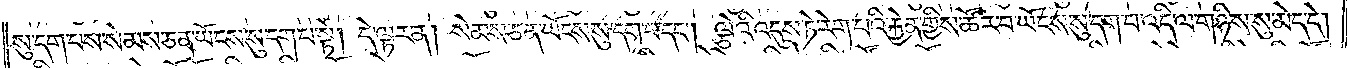སུ་དག་པས་སེམས་ཅན་ཡོངས་སུ་དག་པ་སྟེ། དེ་ལྟར་ན། སེམས་ཅན་ཡོངས་སུ་དག་པ་དང༌། ལྕེའི་འདུས་ཏེ་རེག་པའི་རྐྱེན་གྱིས་ཚོར་བ་ཡོངས་སུ་དག་པ་འདི་ལ་གཉིས་སུ་མེད་དེ།
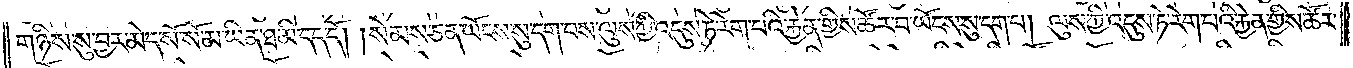གཉིས་སུ་བྱར་མེད་སོ་སོ་མ་ཡིན་ཐ་མི་དད་དོ། །སེམས་ཅན་ཡོངས་སུ་དག་པས་ལུས་ཀྱི་འདུས་ཏེ་རེག་པའི་རྐྱེན་གྱིས་ཚོར་བ་ཡོངས་སུ་དག་པ། ལུས་ཀྱི་འདུས་ཏེ་རེག་པའི་རྐྱེན་གྱིས་ཚོར་
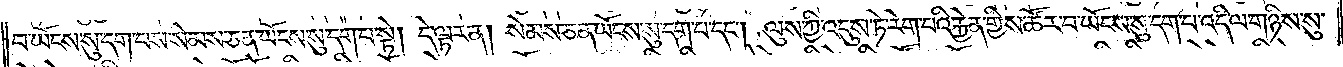བ་ཡོངས་སུ་དག་པས་སེམས་ཅན་ཡོངས་སུ་དག་པ་སྟེ། དེ་ལྟར་ན། སེམས་ཅན་ཡོངས་སུ་དག་པ་དང༌། ལུས་ཀྱི་འདུས་ཏེ་རེག་པའི་རྐྱེན་གྱིས་ཚོར་བ་ཡོངས་སུ་དག་པ་འདི་ལ་གཉིས་སུ་
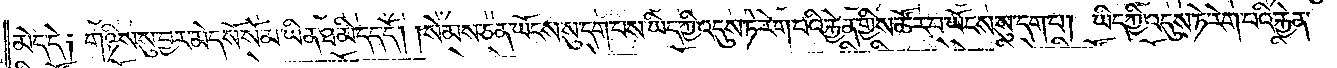མེད་དེ། གཉིས་སུ་བྱར་མེད་སོ་སོ་མ་ཡིན་ཐ་མི་དད་དོ། །སེམས་ཅན་ཡོངས་སུ་དག་པས་ཡིད་ཀྱི་འདུས་ཏེ་རེག་པའི་རྐྱེན་གྱིས་ཚོར་བ་ཡོངས་སུ་དག་པ། ཡིད་ཀྱི་འདུས་ཏེ་རེག་པའི་རྐྱེན་
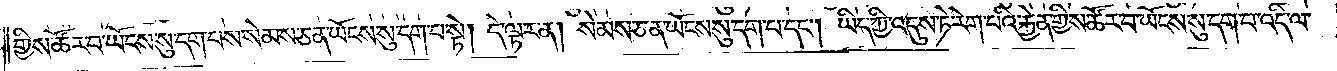གྱིས་ཚོར་བ་ཡོངས་སུ་དག་པས་སེམས་ཅན་ཡོངས་སུ་དག་པ་སྟེ། དེ་ལྟར་ན། སེམས་ཅན་ཡོངས་སུ་དག་པ་དང༌། ཡིད་ཀྱི་འདུས་ཏེ་རེག་པའི་རྐྱེན་གྱིས་ཚོར་བ་ཡོངས་སུ་དག་པ་འདི་ལ་
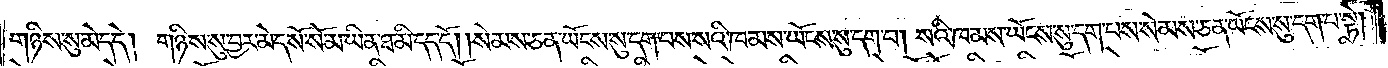གཉིས་སུ་མེད་དེ། གཉིས་སུ་བྱར་མེད་སོ་སོ་མ་ཡིན་ཐ་མི་དད་དོ། །སེམས་ཅན་ཡོངས་སུ་དག་པས་སའི་ཁམས་ཡོངས་སུ་དག་པ། སའི་ཁམས་ཡོངས་སུ་དག་པས་སེམས་ཅན་ཡོངས་སུ་དག་པ་སྟེ།
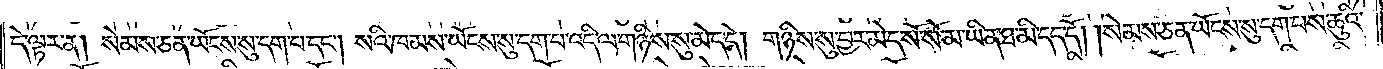དེ་ལྟར་ན། སེམས་ཅན་ཡོངས་སུ་དག་པ་དང༌། སའི་ཁམས་ཡོངས་སུ་དག་པ་འདི་ལ་གཉིས་སུ་མེད་དེ། གཉིས་སུ་བྱར་མེད་སོ་སོ་མ་ཡིན་ཐ་མི་དད་དོ། །སེམས་ཅན་ཡོངས་སུ་དག་པས་ཆུའི་
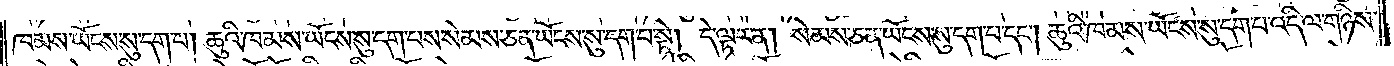ཁམས་ཡོངས་སུ་དག་པ། ཆུའི་ཁམས་ཡོངས་སུ་དག་པས་སེམས་ཅན་ཡོངས་སུ་དག་པ་སྟེ། དེ་ལྟར་ན། སེམས་ཅན་ཡོངས་སུ་དག་པ་དང༌། ཆུའི་ཁམས་ཡོངས་སུ་དག་པ་འདི་ལ་གཉིས་
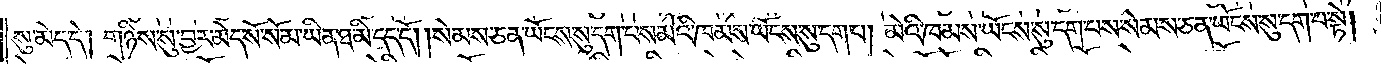སུ་མེད་དེ། གཉིས་སུ་བྱར་མེད་སོ་སོ་མ་ཡིན་ཐ་མི་དད་དོ། །སེམས་ཅན་ཡོངས་སུ་དག་པས་མེའི་ཁམས་ཡོངས་སུ་དག་པ། མེའི་ཁམས་ཡོངས་སུ་དག་པས་སེམས་ཅན་ཡོངས་སུ་དག་པ་སྟེ།
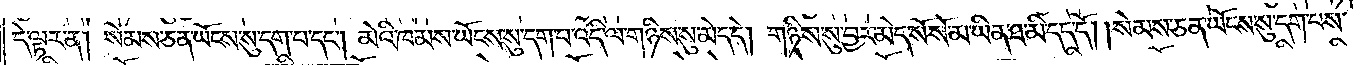དེ་ལྟར་ན། སེམས་ཅན་ཡོངས་སུ་དག་པ་དང༌། མེའི་ཁམས་ཡོངས་སུ་དག་པ་འདི་ལ་གཉིས་སུ་མེད་དེ། གཉིས་སུ་བྱར་མེད་སོ་སོ་མ་ཡིན་ཐ་མི་དད་དོ། །སེམས་ཅན་ཡོངས་སུ་དག་པས་
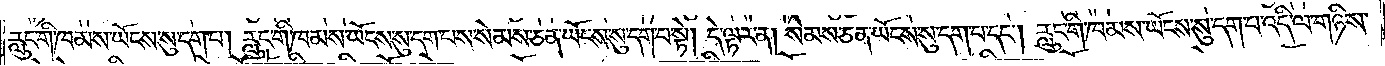རླུང་གི་ཁམས་ཡོངས་སུ་དག་པ། རླུང་གི་ཁམས་ཡོངས་སུ་དག་པས་སེམས་ཅན་ཡོངས་སུ་དག་པ་སྟེ། དེ་ལྟར་ན། སེམས་ཅན་ཡོངས་སུ་དག་པ་དང༌། རླུང་གི་ཁམས་ཡོངས་སུ་དག་པ་འདི་ལ་གཉིས་
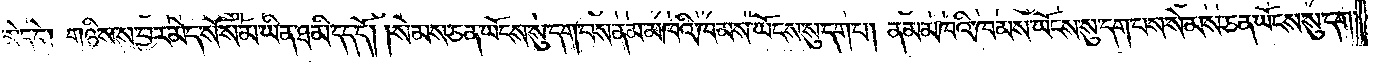སུ་མེད་དེ། གཉིས་སུ་བྱར་མེད་སོ་སོ་མ་ཡིན་ཐ་མི་དད་དོ། །སེམས་ཅན་ཡོངས་སུ་དག་པས་ནམ་མཁའི་ཁམས་ཡོངས་སུ་དག་པ། ནམ་མཁའ་ཁམས་ཡོངས་སུ་དག་པས་སེམས་ཅན་ཡོངས་སུ་དག་
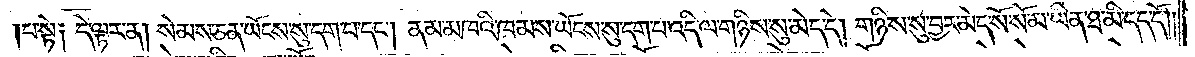པ་སྟེ། དེ་ལྟར་ན། སེམས་ཅན་ཡོངས་སུ་དག་པ་དང༌། ནམ་མཁའི་ཁམས་ཡོངས་སུ་དག་པ་འདི་ལ་གཉིས་སུ་མེད་དེ་གཉིས་སུ་བྱར་མེད་སོ་སོ་མ་ཡིན་ཐ་མི་དད་དོ། །
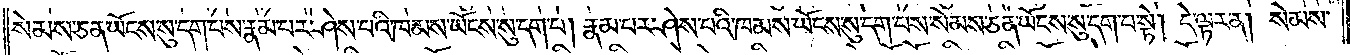སེམས་ཅན་ཡོངས་སུ་དག་པས་རྣམ་པར་ཤེས་པའི་ཁམས་ཡོངས་སུ་དག་པ། རྣམ་པར་ཤེས་པའི་ཁམས་ཡོངས་སུ་དག་པས་སེམས་ཅན་ཡོངས་སུ་དག་པ་སྟེ། དེ་ལྟར་ན། སེམས་
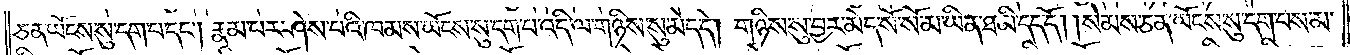ཅན་ཡོངས་སུ་དག་པ་དང༌། རྣམ་པར་ཤེས་པའི་ཁམས་ཡོངས་སུ་དག་པ་འདི་ལ་གཉིས་སུ་མེད་དེ། གཉིས་སུ་བྱར་མེད་སོ་སོ་མ་ཡིན་ཐ་མི་དད་དོ། །སེམས་ཅན་ཡོངས་སུ་དག་པས་མ་
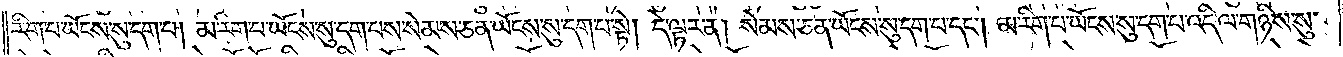རིག་པ་ཡོངས་སུ་དག་པ། མ་རིག་པ་ཡོངས་སུ་དག་པས་སེམས་ཅན་ཡོངས་སུ་དག་པ་སྟེ། དེ་ལྟར་ན། སེམས་ཅན་ཡོངས་སུ་དག་པ་དང༌། མ་རིག་པ་ཡོངས་སུ་དག་པ་འདི་ལ་གཉིས་སུ་
